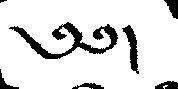༄༅།
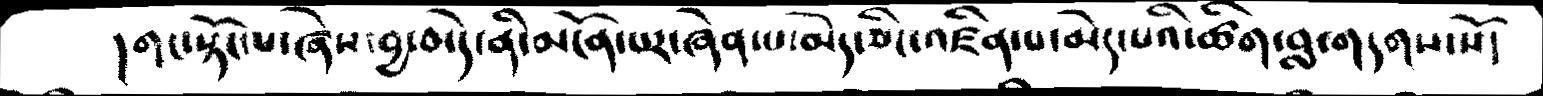།གང་སྟོང་པ་ཞེས་བྱ་བ་དེ་ནི་མངོན་པར་ཞེན་པ་མེད་ཅིང་འཛིན་པ་མེད་པའི་ཚིག་བླ་གདགས་སོ།
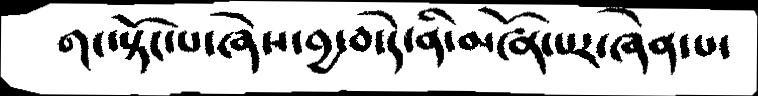གང་སྟོང་པ་ཞེས་བྱ་བ་དེ་ནི་མངོན་པར་ཞེན་པ་
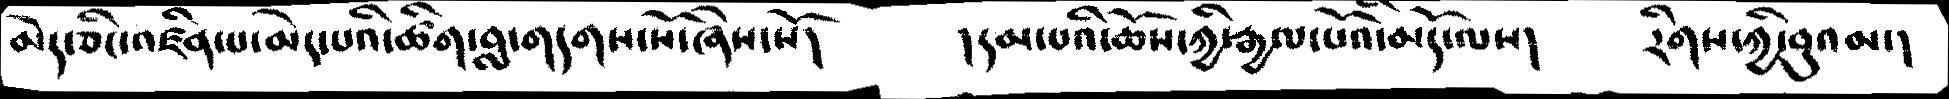མེད་ཅིང་འཛིན་པ་མེད་པའི་ཚིག་བླ་གདགས་སོ་ཞེས་སོ།    །དམ་པའི་ཆོས་ཀྱི་རྒྱལ་པོའི་མདོ་ལས།   རིགས་ཀྱི་བུའམ་།
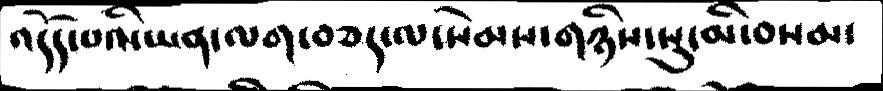འདོད་པའི་ཡན་ལག་བཅད་ལ་སེམས་གཉིས་སུ་མི་བསམ་
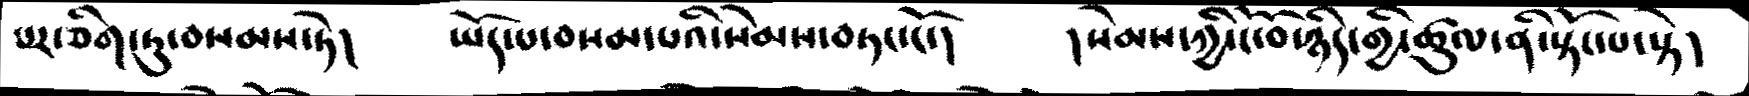པར་ཅིག་ཏུ་བསམས་ཏེ།   ཡོད་པ་བསམ་པའི་སེམས་བཏང་ངོ་།   །སེམས་ཀྱི་ངོ་བོ་ཉིད་གྱི་ཚུལ་ནི་སྟོང་པ་སྟེ།
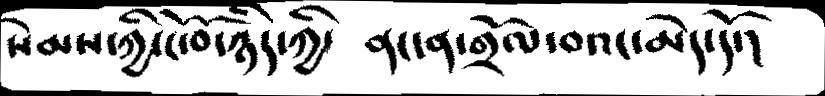སེམས་ཀྱི་ངོ་བོ་ཉིད་ཀྱི་   ནང་ན་གྲོལ་བའང་མེད་དོ་།
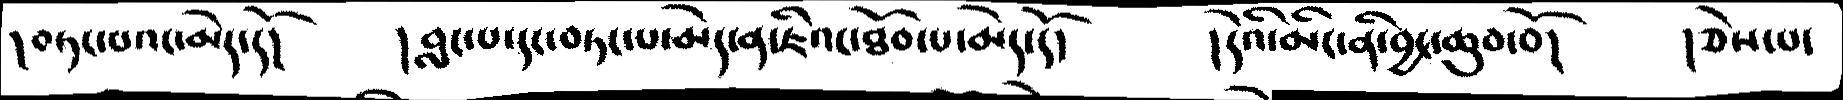།བཏང་པའང་མེད་དོ།    ། བླངས་པ་དང་བཏང་པ་མེད་ན་ཇིའང་ཐོབ་པ་མེད་དོ།    །དེའི་མིང་ནི་བྱང་ཆུབ་བོ།    །ཅེས་པ་
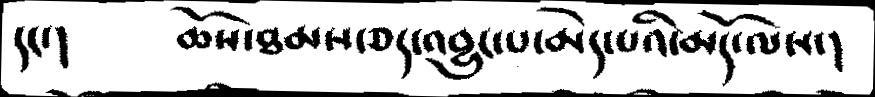དང་།    ཆོས་ཐམས་ཅད་འབྱུང་པ་མེད་པའི་མདོ་ལས་།
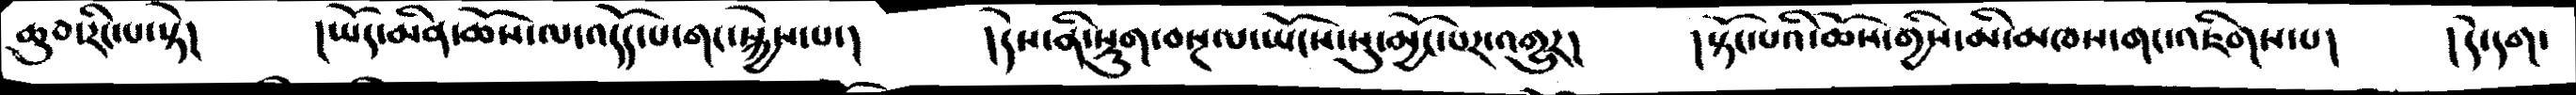ཆུབ་རིང་པ་སྟེ།     །ཡོད་མིན་ཆོས་ལ་འདོད་པ་གང་སྐྱེས་པ་།     །དེས་ནི་སྡུག་བསྔལ་ཡོངས་སུ་མྱོང་པར་འགྱུར།   །སྟོང་པའི་ཆོས་གྱིས་མི་མཁས་གང་འཇིགས་པ།   །དེ་དག་
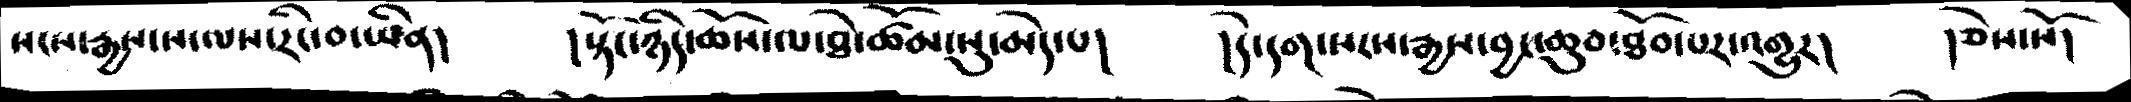སངས་རྒྱས་ས་ལས་རིང་བ་ཡིན།     །སྟོང་ཉིད་ཆོས་ལ་ཐེ་ཚོམ་སུ་མེད་པ།     །དེ་དག་སངས་རྒྱས་བྱང་ཆུབ་ཐོབ་པར་འགྱུར།     །ཅེས་སོ།
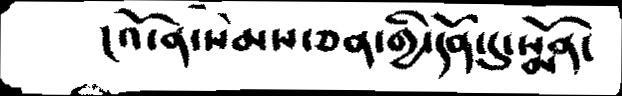།འོ་ན་སེམས་ཅན་གྱི་དོན་དུ་སྨོན་
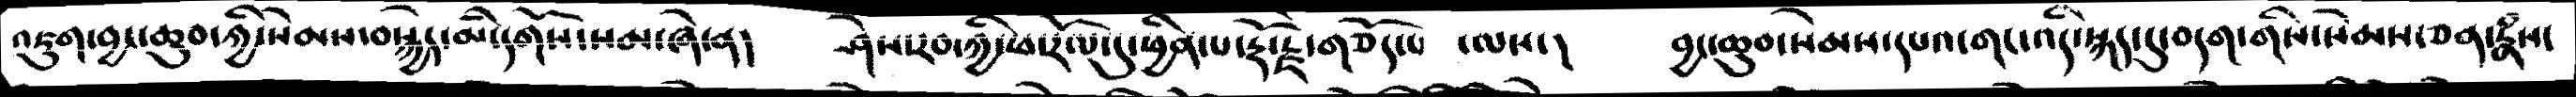འཇུག་བྱང་ཆུབ་ཀྱི་སེམས་བསྐྱེད་མི་དགོས་སམ་ཞེ་ན།   ཤེས་རབ་ཀྱི་ཕ་རོལ་དུ་ཕྱིན་པ་རྡོ་རྗེ་གཅོད་པ ་ལས་།  བྱང་ཆུབ་སེམས་དཔའ་གང་འདི་སྐད་དུ་བདག་གིས་སེམས་ཅན་རྣཾས།
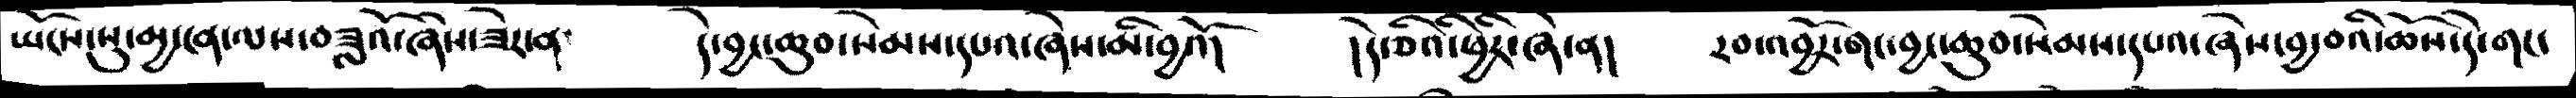ཡོངས་སུ་མྱ་ངན་ལས་བཟླའོ་ཞེས་ཟེར་ན་   དེ་བྱང་ཆུབ་སེམས་དཔའ་ཞེས་མི་བྱའོ།  །དེ་ཅིའི་ཕྱིར་ཞེ་ན།   རབ་འབྱོར་གང་བྱང་ཆུབ་སེམས་དཔའ་ཞེས་བྱ་བའི་ཆོས་དེ་གང་
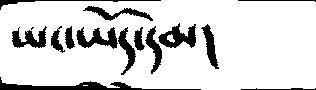ཡང་ཡོད་དམ།
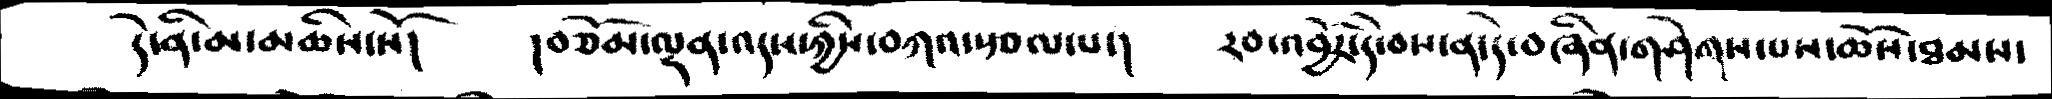དེ་ནི་མ་མཆོས་སོ།    །བཅོམ་ལྡན་འདས་ཀྱིས་བཀའ་སྩལ་པ་།   རབ་འབྱོར་དེ་བས་ན་དེ་བཞིན་གཤེགས་པས་ཆོས་ཐམས་
